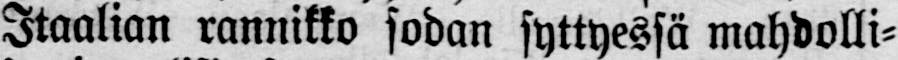Itaalian rannikko sodan syttyessä mahdolli-
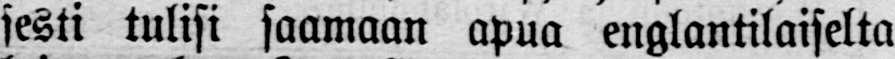sesti tulisi saamaan apua englantilaiselta
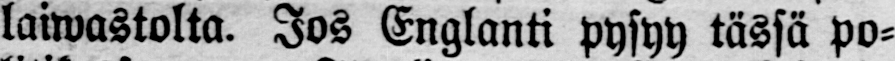laiwastolta. Jos Englanti pysyy tässä po-
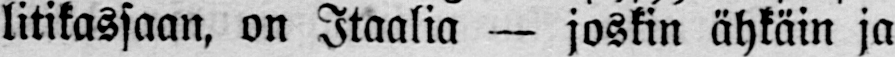litikassaan, on Itaalia — joskin ähkäin ja
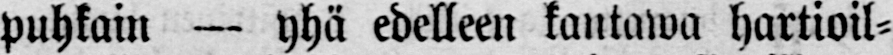puhkoin — yhä edelleen kantawa hartioil-
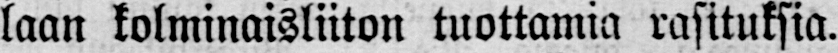laan kolminaisliiton tuottamia rasituksia.
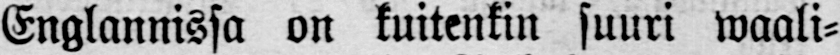Englannissa on kuitenkin suuri waali-
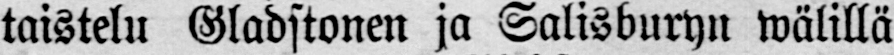taistelu Gladstonen ja Salisburyn wälillä
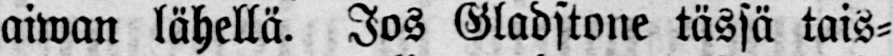aiwan lähellä. Jos Gladstone tässä tais-
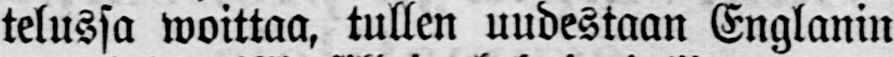telussa woittaa, tullen uudestaan Englanin
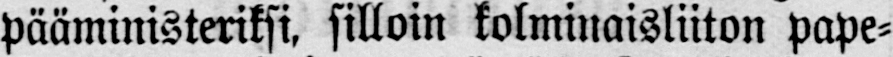pääministeriksi, silloin kolminaisliiton pape-
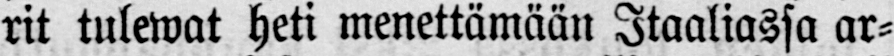rit tulewat heti menettämään Itaaliassa ar-
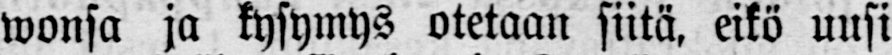wonsa ja kysymys otetaan siitä, eikö uusi
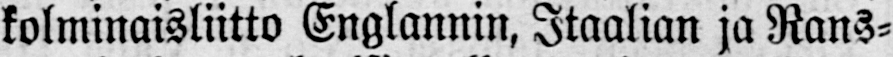kolminaisliitto Englannin, Itaalian ja Rans-
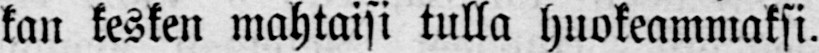kan kesken mahtaisi tulla huokeammaksi.
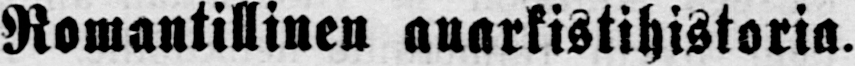Romantillinen anarkistihistoria.
